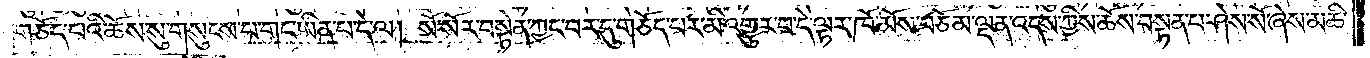བར་དུ་གཅོད་པའི་ཆོས་སུ་གསུངས་པ་གང་ཡིན་པ་དེ་ལ། སོ་སོར་བསྟེན་ཀྱང་བར་དུ་གཅོད་པར་མི་འགྱུར་བ་དེ་ལྟར་ཁོ་མོས་བཅོམ་ལྡན་འདས་ཀྱིས་ཆོས་བསྟན་པ་ཤེས་སོ་ཞེས་མཆི་
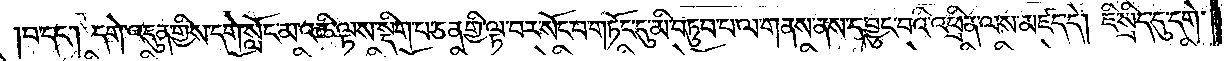བ་དང༌། དགེ་འདུན་གྱིས་དགེ་སློང་མ་འཆི་ལྟས་སྡིག་པ་ཅན་གྱི་ལྟ་བར་སོང་བ་གཏོང་དུ་མི་བཏུབ་པ་ལ་གནས་ནས་དབྱུང་བའི་འཕྲིན་ལས་མཛད་དེ། ཇི་སྲིད་དུ་དགེ་
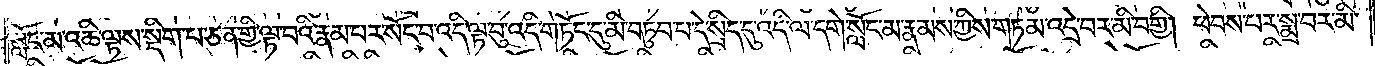སློང་མ་འཆི་ལྟས་སྡིག་པ་ཅན་གྱི་ལྟ་བའི་རྣམ་པར་སོང་བ་འདི་ལྟ་བུ་འདི་གཏོང་དུ་མི་བཏུབ་པ་དེ་སྲིད་དུ་འདི་ལ་དགེ་སློང་མ་རྣམས་ཀྱིས་གཏམ་འདྲེ་བར་མི་བགྱི། ཕེབས་པར་སྨྲ་བར་མི་
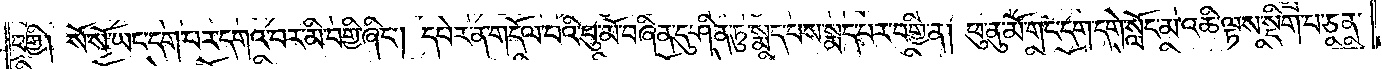བགྱི། སོ་སོ་ཡང་དག་པར་དགའ་བར་མི་བགྱི་ཞིང༌། དཔེར་ན་གདོལ་པའི་བུ་མོ་བཞིན་དུ་ཤིན་ཏུ་སྨད་པས་སྨད་པར་བགྱི་ན། ཕུ་ནུ་མོ་གང་དག་དགེ་སློང་མ་འཆི་ལྟས་སྡིག་པ་ཅན་
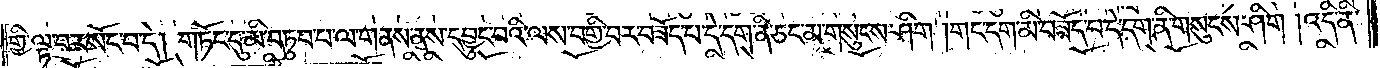གྱི་ལྟ་བར་སོང་བ་དེ། གཏོང་དུ་མི་བཏུབ་པ་ལ་གནས་ནས་དབྱུང་བའི་ལས་བགྱི་བར་བཟོད་པ་དེ་དག་ནི་ཅང་མ་གསུངས་ཤིག །གང་དག་མི་བཟོད་པ་དེ་དག་ནི་གསུངས་ཤིག །འདི་ནི་
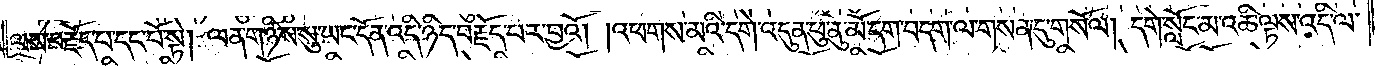ལས་བརྗོད་པ་དང་པོ་སྟེ། ལན་གཉིས་སུ་ཡང་དོན་འདི་ཉིད་བརྗོད་པར་བྱའོ། །འཕགས་མའི་དགེ་འདུན་ཕུ་ནུ་མོ་དག་བདག་ལ་གསན་དུ་གསོལ། དགེ་སློང་མ་འཆི་ལྟས་འདི་ལ་
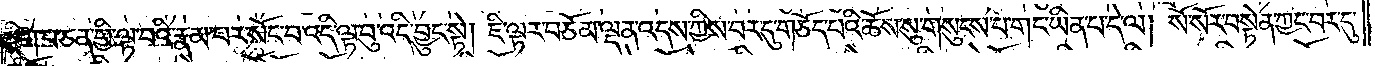སྡིག་པ་ཅན་གྱི་ལྟ་བའི་རྣམ་པར་སོང་བ་འདི་ལྟ་བུ་འདི་བྱུང་སྟེ། ཇི་ལྟར་བཅོམ་ལྡན་འདས་ཀྱིས་བར་དུ་གཅོད་པའི་ཆོས་སུ་གསུངས་པ་གང་ཡིན་པ་དེ་ལ། སོ་སོར་བསྟེན་ཀྱང་བར་དུ་
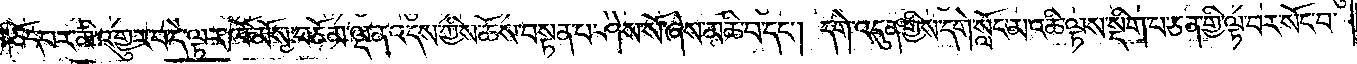གཅོད་པར་མི་འགྱུར་བ་དེ་ལྟར་ཁོ་མོས་བཅོམ་ལྡན་འདས་ཀྱིས་ཆོས་བསྟན་པ་ཤེས་སོ་ཞེས་མཆི་བ་དང༌། དགེ་འདུན་གྱིས་དགེ་སློང་མ་འཆི་ལྟས་སྡིག་པ་ཅན་གྱི་ལྟ་བར་སོང་བ་
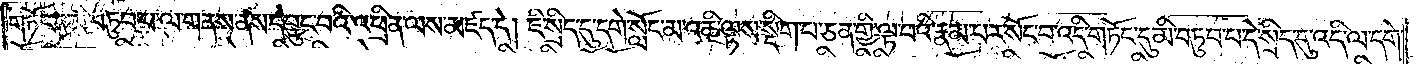གཏོང་དུ་མི་བཏུབ་པ་ལ་གནས་ནས་དབྱུང་བའི་འཕྲིན་ལས་མཛད་དེ། ཇི་སྲིད་དུ་དགེ་སློང་མ་འཆི་ལྟས་སྡིག་པ་ཅན་གྱི་ལྟ་བའི་རྣམ་པར་སོང་བ་འདི་གཏོང་དུ་མི་བཏུབ་པ་དེ་སྲིད་དུ་འདི་ལ་དགེ་
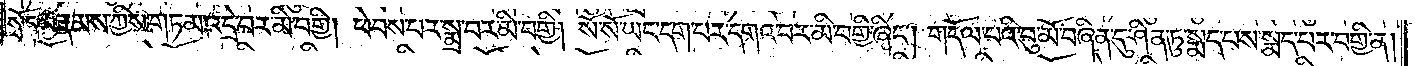སློང་མ་རྣམས་ཀྱིས་གཏམ་འདྲེ་བར་མི་བགྱི། ཕེབས་པར་སྨྲ་བར་མི་བགྱི། སོ་སོ་ཡང་དག་པར་དགའ་བར་མི་བགྱི་ཞིང༌། གདོལ་པའི་བུ་མོ་བཞིན་དུ་ཤིན་ཏུ་སྨད་པས་སྨད་པར་བགྱི་ན།
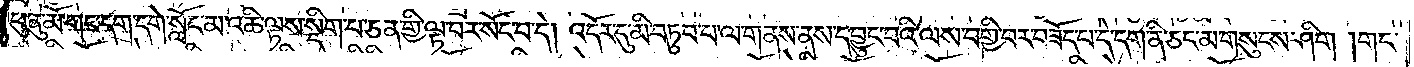ཕུ་ནུ་མོ་གང་དགེ་སློང་མ་འཆི་ལྟས་སྡིག་པ་ཅན་གྱི་ལྟ་བར་སོང་བ་དེ། འདོར་ནུ་མི་བཏུབ་པ་ལ་གནས་ནས་དབྱུང་བའི་ལས་བགྱི་བར་བཟོད་པ་དེ་དག་ནི་ཅང་མ་གསུངས་ཤིག །གང་
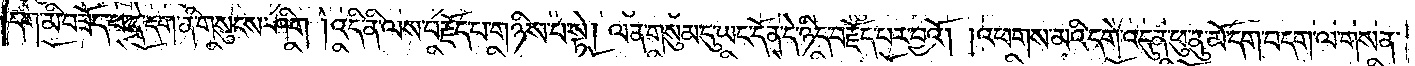དག་མི་བཟོད་པ་དེ་དག་ནི་གསུངས་ཤིག །འདི་ནི་ལས་བརྗོད་པ་གཉིས་པ་སྟེ། ལན་གསུམ་དུ་ཡང་དོན་དེ་ཉིད་བརྗོད་པར་བྱའོ། །འཕགས་མའི་དགེ་འདུན་ཕུ་ནུ་མོ་དག་བདག་ལ་གསན་
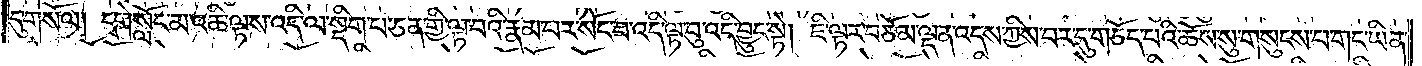དུ་གསོལ། དགེ་སློང་མ་འཆི་ལྟས་འདི་ལ་སྡིག་པ་ཅན་གྱི་ལྟ་བའི་རྣམ་པར་སོང་བ་འདི་ལྟ་བུ་འདི་བྱུང་སྟེ། ཇི་ལྟར་བཅོམ་ལྡན་འདས་ཀྱིས་བར་དུ་གཅོད་པའི་ཆོས་སུ་གསུངས་པ་གང་ཡིན་
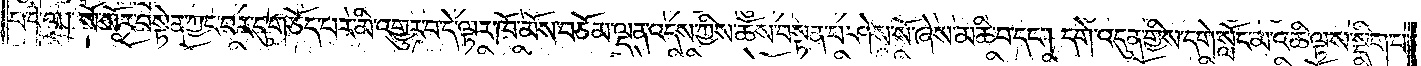པ་དེ་ལ། སོ་སོར་བསྟེན་ཀྱང་བར་དུ་གཅོད་པར་མི་འགྱུར་བ་དེ་ལྟར་ཁོ་མོས་བཅོམ་ལྡན་འདས་ཀྱིས་ཆོས་བསྟན་པ་ཤེས་སོ་ཞེས་མཆི་བ་དང༌། དགེ་འདུན་གྱིས་དགེ་སློང་མ་འཆི་ལྟས་སྡིག་པ་
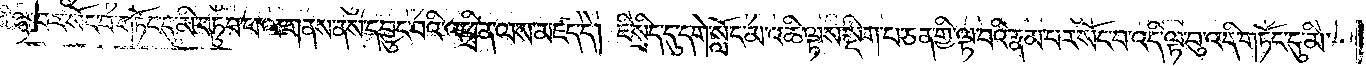ཅན་གྱི་ལྟ་བར་སོང་བ་གཏོང་དུ་མི་བཏུབ་པ་ལ་གནས་ནས་དབྱུང་བའི་འཕྲིན་ལས་མཛད་དེ། ཇི་སྲིད་དུ་དགེ་སློང་མ་འཆི་ལྟས་སྡིག་པ་ཅན་གྱི་ལྟ་བའི་རྣམ་པར་སོང་བ་འདི་ལྟ་བུ་འདི་གཏོང་དུ་མི་
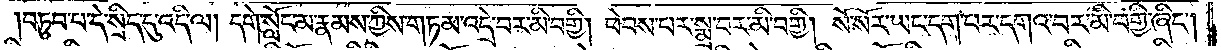བཏུབ་པ་དེ་སྲིད་དུ་འདི་ལ། དགེ་སློང་མ་རྣམས་ཀྱིས་གཏམ་འདྲེ་བར་མི་བགྱི། ཕེབས་པར་སྨྲ་བར་མི་བགྱི། སོ་སོར་ཡང་དག་པར་དགའ་བར་མི་བགྱི་ཞིང༌།
